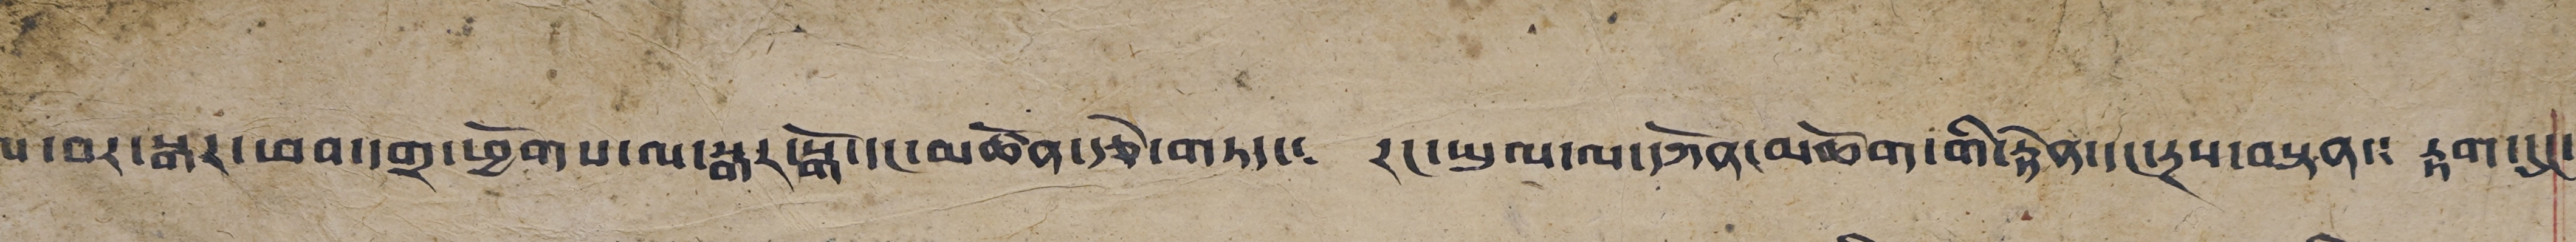མ་འགལ་བར་སྒར་ཕབ་དགྲ་ཕྱོགས་ལ་སྒར་སྒོ་ང་མཚོན་རྩེ་གཏད་༴ རང་ཡུལ་ལ་དཀོན་མཆོག་གི་རྟེན་དང་རྔས་བསྟན་༴ རྟག་དུད་
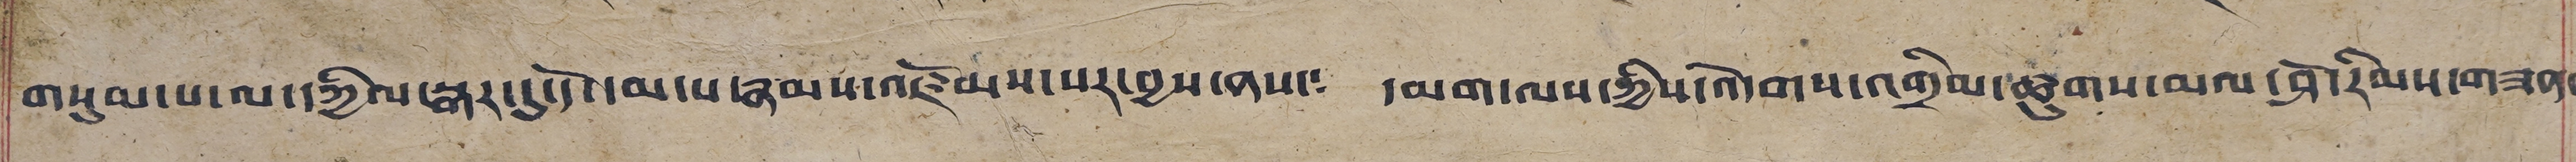གསུམ་པ་ལ་དཀྱིལ་སྒར་དུ་དོ་དམ་པ་རྣམས་འཛོམས་པར་བྱས་ནས་༴ དམག་ལས་ཀྱིས་འདེགས་འགྲིམ་ཚུགས་མལ་ཤོ་རིམས་གཟན་
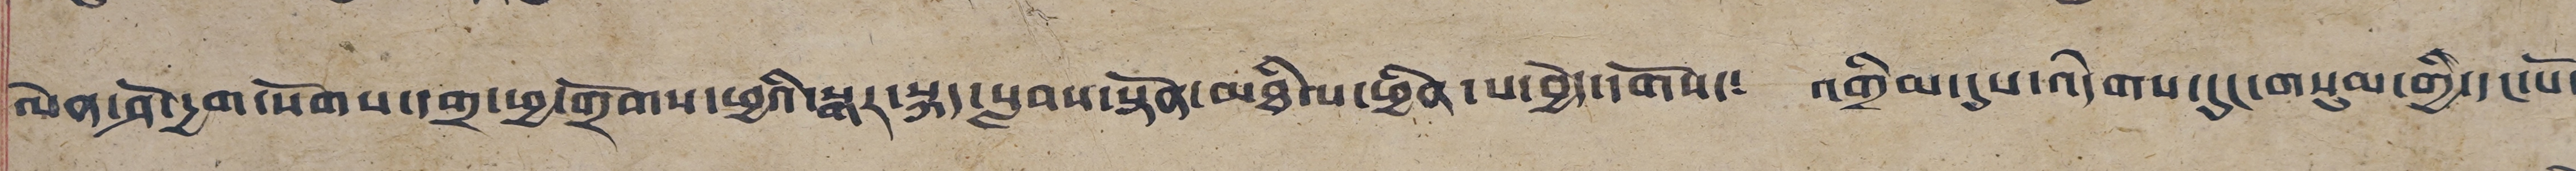ལེན་ཤོ་དྱག་སོགས་དགྲ་ཕྱ་གྲོགས་ཕྱའི་སྒར་སྐད་སླབས་སྟོན་མཐིལ་ཕྱིན་པ་བྱེད་དགོས་༴ འགྲིམ་དུས་འདེགས་དུང་གསུམ་གྱི་དང་པོ་
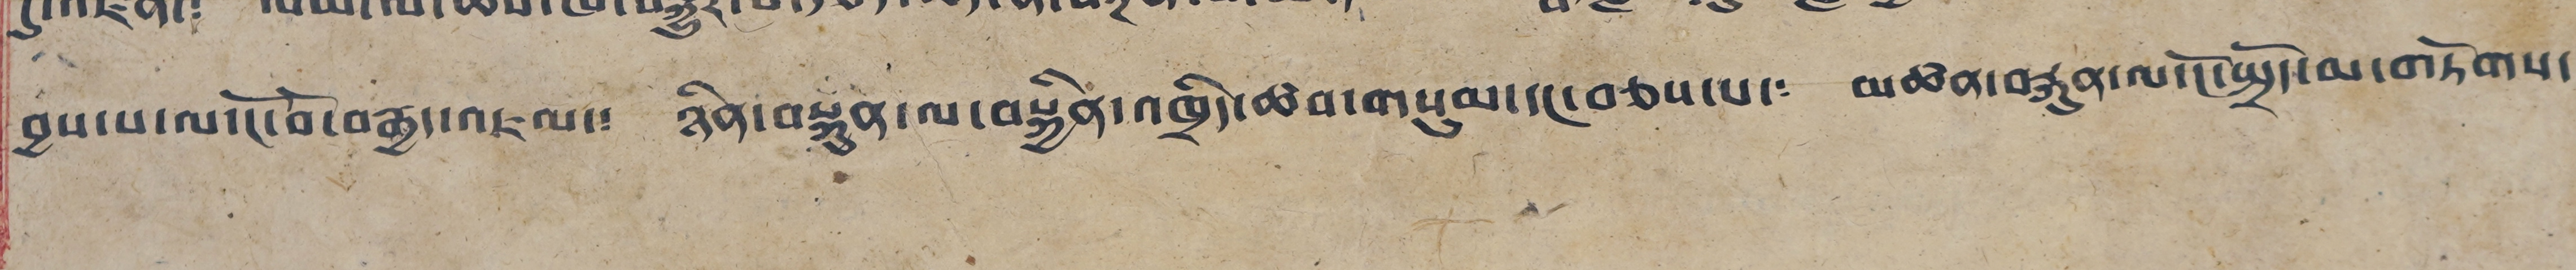བྱས་པ་ལ་ངོ་བོ་བརྒྱད་འཇལ་༴ ཉིན་བསྐུན་ལ་བསྐྱིན་འཁྲིད་ཆབ་གསུམ་དང་བཅས་པ་༴ མཚན་བརྐུན་ལ་ངོ་སྤྲོད་མ་གཏོགས་
